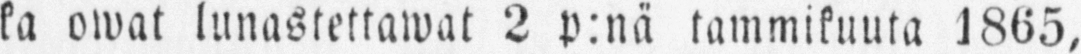ka owat lunastettawat 2 p:nä tammikuuta 1865,
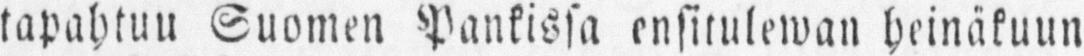tapahtuu Suomen Pankissa ensitulewan heinäkuun
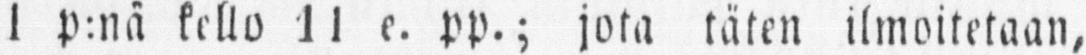1 p:nä killu 11 e. pp.; jota täten ilmoitetaan,
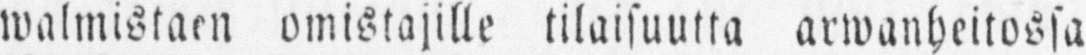walmistaen omistajille tilaisuutta arwanheitossa
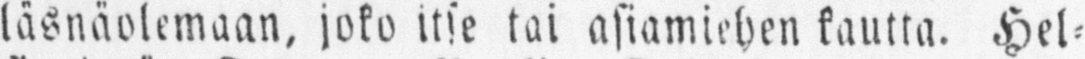läsnäolemaan, joko itse tai asiamiehen kautta. Hel-
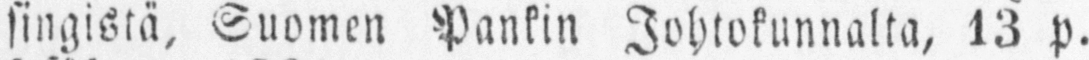singistä, Suomen Pankin Johtokunnalta, 13 p.
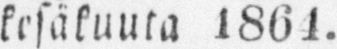kesäkuuta 1864.
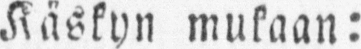Käskyn mukaan:
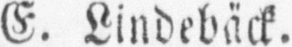E. Lindebäck.
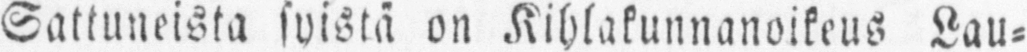Sattuneista syistä on Kihlakunnanoikeus Lau-
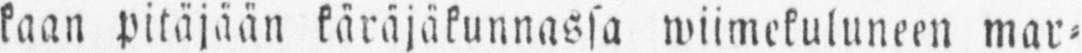kaan pitäjään käräjäkunnassa wiimekuluneen mar-
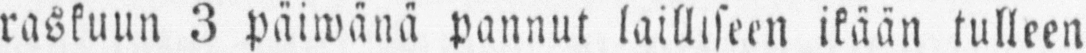raskuun 3 päiwänä pannut lailliseen ikään tulleen
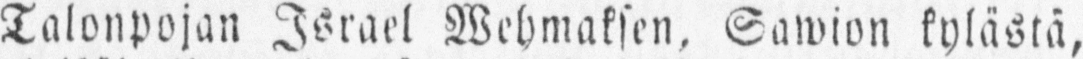Talonpojan Israel Wehmaksen, Sawion kylästä,
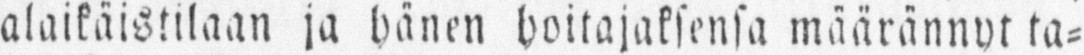alaikäistilaan ja hänen hoitajaksensa määrännyt ta-
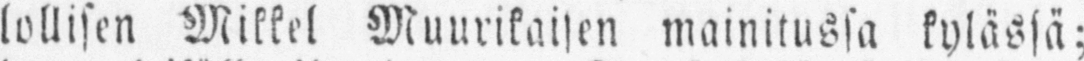lollisen Mikkel Muurikaisen mainitussa kylässä;
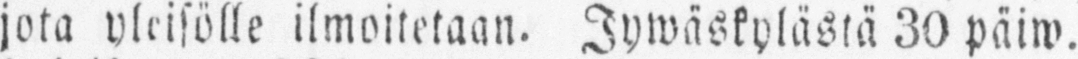jota yleisölle ilmoitetaan. Jywäskylästä 30 päiw.
